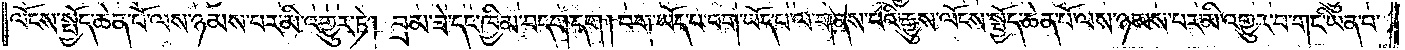ལོངས་སྤྱོད་ཆེན་པོ་ལས་ཉམས་པར་མི་འགྱུར་ཏེ། བྲམ་ཟེ་དང་ཁྱིམ་བདག་དག །བག་ཡོད་པ་བག་ཡོད་པ་ལ་གནས་པའི་རྒྱུས་ལོངས་སྤྱོད་ཆེན་པོ་ལས་ཉམས་པར་མི་འགྱུར་བ་གང་ཡིན་པ་
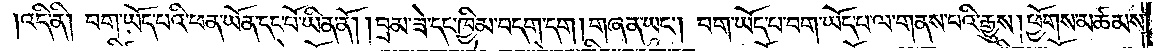འདི་ནི། བག་ཡོད་པའི་ཕན་ཡོན་དང་པོ་ཡིན་ནོ། །བྲམ་ཟེ་དང་ཁྱིམ་བདག་དག །གཞན་ཡང༌། བག་ཡོད་པ་བག་ཡོད་པ་ལ་གནས་པའི་རྒྱུས། ཕྱོགས་མཚམས་
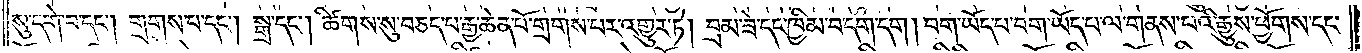སུ་དགེ་བ་དང༌། གྲགས་པ་དང༌། སྒྲ་དང༌། ཚིགས་སུ་བཅད་པ་རྒྱ་ཆེན་པོ་གྲགས་པར་འགྱུར་ཏེ། བྲམ་ཟེ་དང་ཁྱིམ་བདག་དག །བག་ཡོད་པ་བག་ཡོད་པ་ལ་གནས་པའི་རྒྱུས་ཕྱོགས་དང་
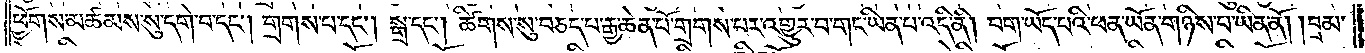ཕྱོགས་མཚམས་སུ་དགེ་བ་དང༌། གྲགས་པ་དང༌། སྒྲ་དང༌། ཚིགས་སུ་བཅད་པ་རྒྱ་ཆེན་པོ་གྲགས་པར་འགྱུར་བ་གང་ཡིན་པ་འདི་ནི། བག་ཡོད་པའི་ཕན་ཡོན་གཉིས་པ་ཡིན་ནོ། །བྲམ་
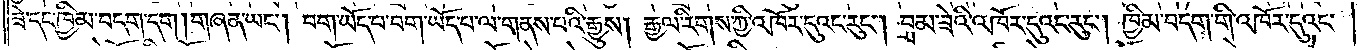ཟེ་དང་ཁྱིམ་བདག་དག །གཞན་ཡང༌། བག་ཡོད་པ་བག་ཡོད་པ་ལ་གནས་པའི་རྒྱུས། རྒྱལ་རིགས་ཀྱི་འཁོར་དུའང་རུང༌། བྲམ་ཟེའི་འཁོར་དུའང་རུང༌། ཁྱིམ་བདག་གི་འཁོར་དུའང་
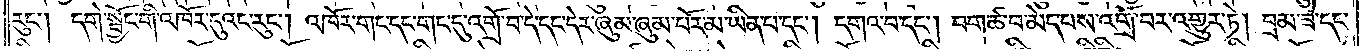རུང༌། དགེ་སྦྱོང་གི་འཁོར་དུའང་རུང༌། འཁོར་གང་དང་གང་དུ་འགྲོ་བ་དེ་དང་དེར་ཞུམ་ཞུམ་པོར་མ་ཡིན་པ་དང༌། དགའ་བ་དང༌། བག་ཚ་བ་མེད་པས་འགྲོ་བར་འགྱུར་ཏེ། བྲམ་ཟེ་དང་
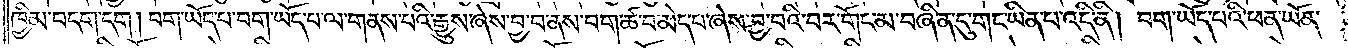ཁྱིམ་བདག་དག །བག་ཡོད་པ་བག་ཡོད་པ་ལ་གནས་པའི་རྒྱུས་ཞེས་བྱ་བ་ནས་བག་ཚ་བ་མེད་པ་ཞེས་བྱ་བའི་བར་གོང་མ་བཞིན་དུ་གང་ཡིན་པ་འདི་ནི། བག་ཡོད་པའི་ཕན་ཡོན་
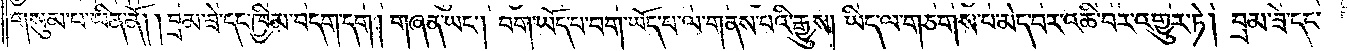གསུམ་པ་ཡིན་ནོ། །བྲམ་ཟེ་དང་ཁྱིམ་བདག་དག །གཞན་ཡང༌། བག་ཡོད་པ་བག་ཡོད་པ་ལ་གནས་པའི་རྒྱུས། ཡིད་ལ་གཅགས་པ་མེད་བར་འཆི་བར་འགྱུར་ཏེ། བྲམ་ཟེ་དང་
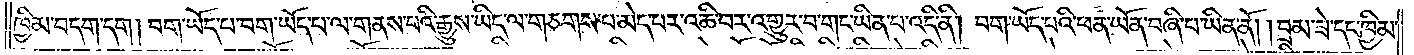ཁྱིམ་བདག་དག། བག་ཡོད་པ་བག་ཡོད་པ་ལ་གནས་པའི་རྒྱུས་ཡིད་ལ་གཅགས་པ་མེད་པར་འཆི་བར་འགྱུར་བ་གང་ཡིན་པ་འདི་ནི། བག་ཡོད་པའི་ཕན་ཡོན་བཞི་པ་ཡིན་ནོ། །བྲམ་ཟེ་དང་ཁྱིམ་
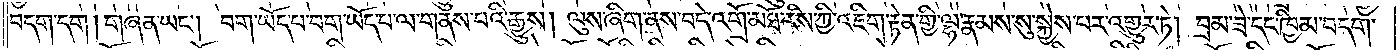བདག་དག །གཞན་ཡང༌། བག་ཡོད་པ་བག་ཡོད་པ་ལ་གནས་པའི་རྒྱུས། ལུས་ཞིག་ནས་བདེ་འགྲོ་མཐོ་རིས་ཀྱི་འཇིག་རྟེན་གྱི་ལྷ་རྣམས་སུ་སྐྱེས་པར་འགྱུར་ཏེ། བྲམ་ཟེ་དང་ཁྱིམ་བདག་
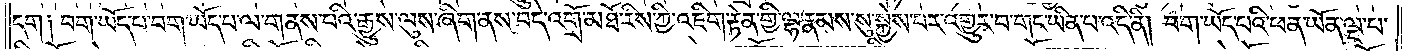དག༑ བག་ཡོད་པ་བག་ཡོད་པ་ལ་གནས་པའི་རྒྱུས་ལུས་ཞིག་ནས་བདེ་འགྲོ་མཐོ་རིས་ཀྱི་འཇིག་རྟེན་གྱི་ལྷ་རྣམས་སུ་སྐྱེས་པར་འགྱུར་བ་གང་ཡིན་པ་འདི་ནི། བག་ཡོད་པའི་ཕན་ཡོན་ལྔ་པ་
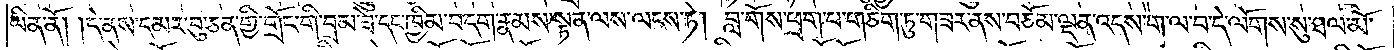ཡིན་ནོ། །དེ་ནས་དམར་བུ་ཅན་གྱི་གྲོང་གི་བྲམ་ཟེ་དང་ཁྱིམ་བདག་རྣམས་སྟན་ལས་ལངས་ཏེ། བླ་གོས་ཕྲག་པ་གཅིག་ཏུ་གཟར་ནས་བཅོམ་ལྡན་འདས་ག་ལ་བ་དེ་ལོགས་སུ་ཐལ་མོ་
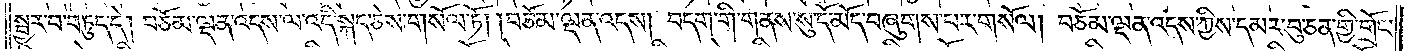སྦྱར་བ་བཏུད་དེ། བཅོམ་ལྡན་འདས་ལ་འདི་སྐད་ཅེས་གསོལ་ཏོ། །བཅོམ་ལྡན་འདས། བདག་གི་གནས་སུ་དོ་མོད་བཞུགས་པར་གསོལ། བཅོམ་ལྡན་འདས་ཀྱིས་དམར་བུ་ཅན་གྱི་གྲོང་
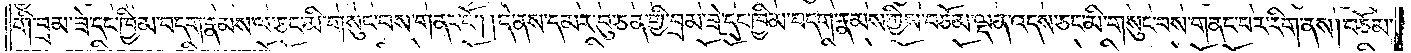གི་བྲམ་ཟེ་དང་ཁྱིམ་བདག་རྣམས་ལ་ཅང་མི་གསུང་བས་གནང་ངོ༌། །དེ་ནས་དམར་བུ་ཅན་གྱི་བྲམ་ཟེ་དང་ཁྱིམ་བདག་རྣམས་ཀྱིས་བཅོམ་ལྡན་འདས་ཅང་མི་གསུང་བས་གནང་བར་རིག་ནས། བཅོམ་
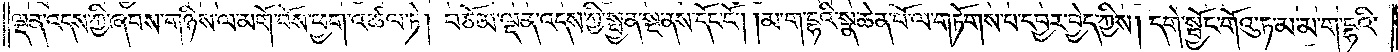ལྡན་འདས་ཀྱི་ཞབས་གཉིས་ལ་མགོ་བོས་ཕྱག་འཚལ་ཏེ། བཅོམ་ལྡན་འདས་ཀྱི་སྤྱན་སྔ་ནས་དོང་ངོ༌། །མ་ག་དྷའི་སྣ་ཆེན་པོ་ལ་གཏོགས་པ་དབྱར་བྱེད་ཀྱིས། དགེ་སྦྱོང་གོའུ་ཏ་མ་མ་ག་དྷའི་
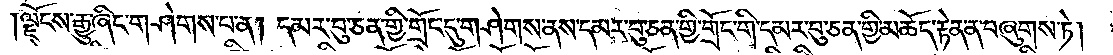ལྗོངས་རྒྱུ་ཞིང་གཤེགས་པ་ན། དམར་བུ་ཅན་གྱི་གྲོང་དུ་གཤེགས་ནས་དམར་བུ་ཅན་གྱི་གྲོང་གི་དམར་བུ་ཅན་གྱི་མཆོད་རྟེན་ན་བཞུགས་ཏེ།<gap>དེ་
